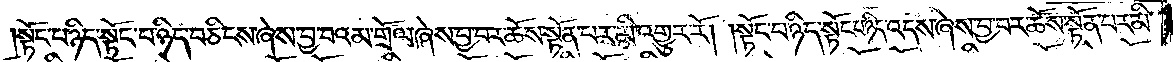སྟོང་པ་ཉིད་སྟོང་པ་ཉིད་བཅིངས་ཞེས་བྱ་བའམ་གྲོལ་ཞེས་བྱ་བར་ཆོས་སྟོན་པར་མི་འགྱུར་རོ། །སྟོང་པ་ཉིད་སྟོང་པ་ཉིད་འདས་ཞེས་བྱ་བར་ཆོས་སྟོན་པར་མི་
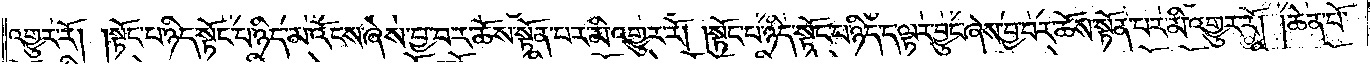འགྱུར་རོ། །སྟོང་པ་ཉིད་སྟོང་པ་ཉིད་མ་འོངས་ཞེས་བྱ་བར་ཆོས་སྟོན་པར་མི་འགྱུར་རོ། །སྟོང་པ་ཉིད་སྟོང་པ་ཉིད་ད་ལྟར་བྱུང་ཞེས་བྱ་བར་ཆོས་སྟོན་པར་མི་འགྱུར་རོ། །ཆེན་པོ་
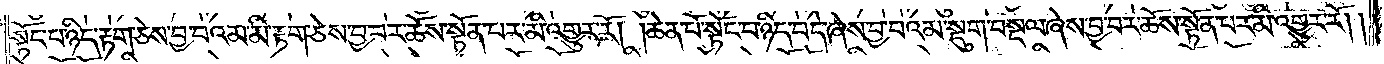སྟོང་པ་ཉིད་རྟག་ཅེས་བྱ་བའམ་མི་རྟག་ཅེས་བྱ་བར་ཆོས་སྟོན་པར་མི་འགྱུར་རོ། །ཆེན་པོ་སྟོང་པ་ཉིད་བདེ་ཞེས་བྱ་བའམ་སྡུག་བསྔལ་ཞེས་བྱ་བར་ཆོས་སྟོན་པར་མི་འགྱུར་རོ། །
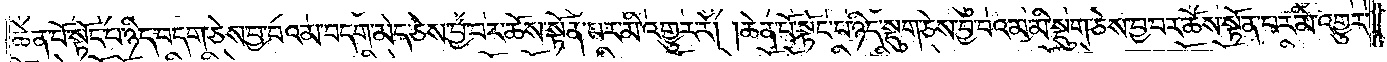ཆེན་པོ་སྟོང་པ་ཉིད་བདག་ཅེས་བྱ་བའམ་བདག་མེད་ཅེས་བྱ་བར་ཆོས་སྟོན་པར་མི་འགྱུར་རོ། །ཆེན་པོ་སྟོང་པ་ཉིད་སྡུག་ཅེས་བྱ་བའམ་མི་སྡུག་ཅེས་བྱ་བར་ཆོས་སྟོན་པར་མི་འགྱུར་
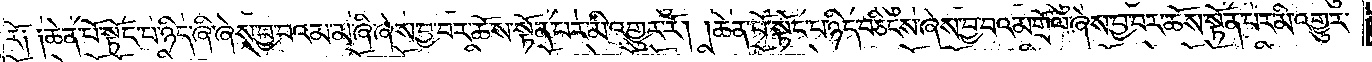རོ༑ ༑ཆེན་པོ་སྟོང་པ་ཉིད་ཞི་ཞེས་བྱ་བའམ་མ་ཞི་ཞེས་བྱ་བར་ཆོས་སྟོན་པར་མི་འགྱུར་རོ། །ཆེན་པོ་སྟོང་པ་ཉིད་བཅིངས་ཞེས་བྱ་བའམ་གྲོལ་ཞེས་བྱ་བར་ཆོས་སྟོན་པར་མི་འགྱུར་
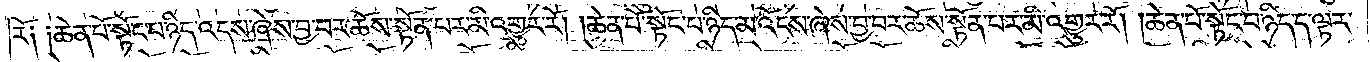རོ༑ ༑ཆེན་པོ་སྟོང་པ་ཉིད་འདས་ཞེས་བྱ་བར་ཆོས་སྟོན་པར་མི་འགྱུར་རོ། །ཆེན་པོ་སྟོང་པ་ཉིད་མ་འོངས་ཞེས་བྱ་བར་ཆོས་སྟོན་པར་མི་འགྱུར་རོ། །ཆེན་པོ་སྟོང་པ་ཉིད་ད་ལྟར་
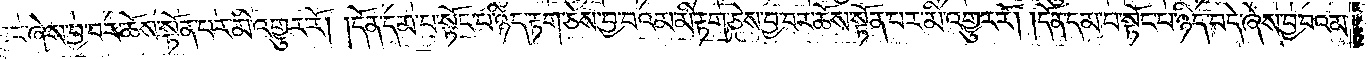བྱུང་ཞེས་བྱ་བར་ཆོས་སྟོན་པར་མི་འགྱུར་རོ། །དོན་དམ་པ་སྟོང་པ་ཉིད་རྟག་ཅེས་བྱ་བའམ་མི་རྟག་ཅེས་བྱ་བར་ཆོས་སྟོན་པར་མི་འགྱུར་རོ། །དོན་དམ་པ་སྟོང་པ་ཉིད་བདེ་ཞེས་བྱ་བའམ་
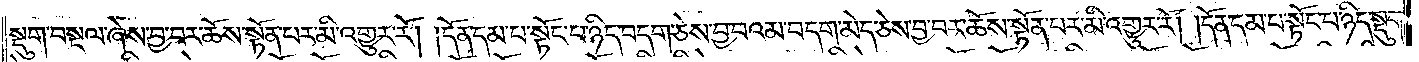སྡུག་བསྔལ་ཞེས་བྱ་བར་ཆོས་སྟོན་པར་མི་འགྱུར་རོ། །དོན་དམ་པ་སྟོང་པ་ཉིད་བདག་ཅེས་བྱ་བའམ་བདག་མེད་ཅེས་བྱ་བར་ཆོས་སྟོན་པར་མི་འགྱུར་རོ། །དོན་དམ་པ་སྟོང་པ་ཉིད་སྡུག་
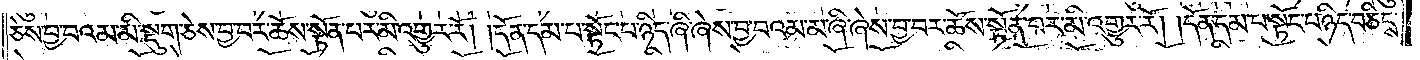ཅེས་བྱ་བའམ་མི་སྡུག་ཅེས་བྱ་བར་ཆོས་སྟོན་པར་མི་འགྱུར་རོ། །དོན་དམ་པ་སྟོང་པ་ཉིད་ཞི་ཞེས་བྱ་བའམ་མ་ཞི་ཞེས་བྱ་བར་ཆོས་སྟོན་པར་མི་འགྱུར་རོ། །དོན་དམ་པ་སྟོང་པ་ཉིད་བཅིངས་
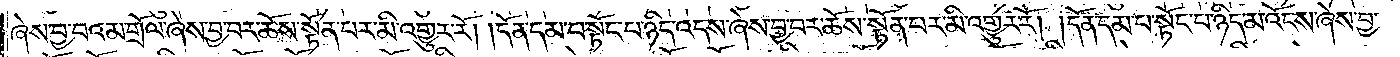ཞེས་བྱ་བའམ་གྲོལ་ཞེས་བྱ་བར་ཆོས་སྟོན་པར་མི་འགྱུར་རོ། །དོན་དམ་པ་སྟོང་པ་ཉིད་འདས་ཞེས་བྱ་བར་ཆོས་སྟོན་པར་མི་འགྱུར་རོ། །དོན་དམ་པ་སྟོང་པ་ཉིད་མ་འོངས་ཞེས་བྱ་
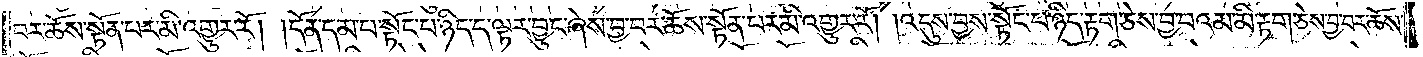བར་ཆོས་སྟོན་པར་མི་འགྱུར་རོ། །དོན་དམ་པ་སྟོང་པ་ཉིད་ད་ལྟར་བྱུང་ཞེས་བྱ་བར་ཆོས་སྟོན་པར་མི་འགྱུར་རོ། །འདུས་བྱས་སྟོང་པ་ཉིད་རྟག་ཅེས་བྱ་བའམ་མི་རྟག་ཅེས་བྱ་བར་ཆོས་
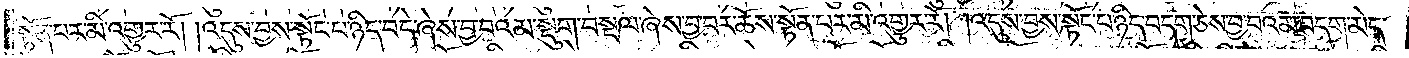སྟོན་པར་མི་འགྱུར་རོ། །འདུས་བྱས་སྟོང་པ་ཉིད་བདེ་ཞེས་བྱ་བའམ་སྡུག་བསྔལ་ཞེས་བྱ་བར་ཆོས་སྟོན་པར་མི་འགྱུར་རོ། །འདུས་བྱས་སྟོང་པ་ཉིད་བདག་ཅེས་བྱ་བའམ་བདག་མེད་
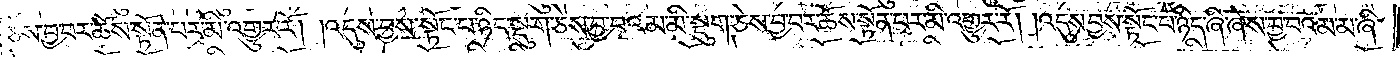ཅེས་བྱ་བར་ཆོས་སྟོན་པར་མི་འགྱུར་རོ། །འདུས་བྱས་སྟོང་པ་ཉིད་སྡུག་ཅེས་བྱ་བའམ་མི་སྡུག་ཅེས་བྱ་བར་ཆོས་སྟོན་པར་མི་འགྱུར་རོ། །འདུས་བྱས་སྟོང་པ་ཉིད་ཞི་ཞེས་བྱ་བའམ་མ་ཞི་
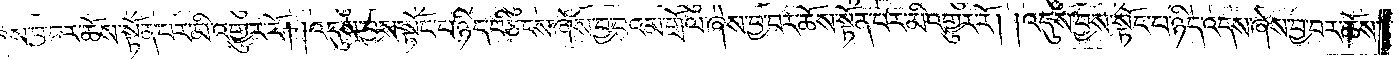ཞེས་བྱ་བར་ཆོས་སྟོན་པར་མི་འགྱུར་རོ། །འདུས་བྱས་སྟོང་པ་ཉིད་བཅིངས་ཞེས་བྱ་བའམ་གྲོལ་ཞེས་བྱ་བར་ཆོས་སྟོན་པར་མི་འགྱུར་རོ། །འདུས་བྱས་སྟོང་པ་ཉིད་འདས་ཞེས་བྱ་བར་ཆོས་
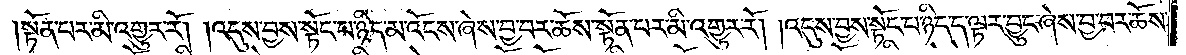སྟོན་པར་མི་འགྱུར་རོ། །འདུས་བྱས་སྟོང་པ་ཉིད་མ་འོངས་ཞེས་བྱ་བར་ཆོས་སྟོན་པར་མི་འགྱུར་རོ། །འདུས་བྱས་སྟོང་པ་ཉིད་ད་ལྟར་བྱུང་ཞེས་བྱ་བར་ཆོས་
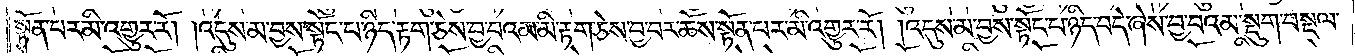སྟོན་པར་མི་འགྱུར་རོ། །འདུས་མ་བྱས་སྟོང་པ་ཉིད་རྟག་ཅེས་བྱ་བའམ་མི་རྟག་ཅེས་བྱ་བར་ཆོས་སྟོན་པར་མི་འགྱུར་རོ། །འདུས་མ་བྱས་སྟོང་པ་ཉིད་བདེ་ཞེས་བྱ་བའམ་སྡུག་བསྔལ་
